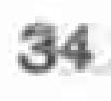34
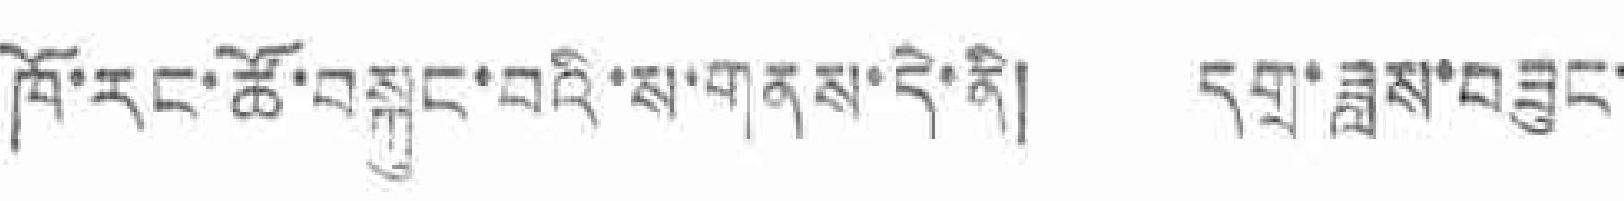ཁོ་རང་ཚོ་བསྐུང་བའི་ས་གནས་དེ་ནི། དགྲ་ཟླས་བཟུང་
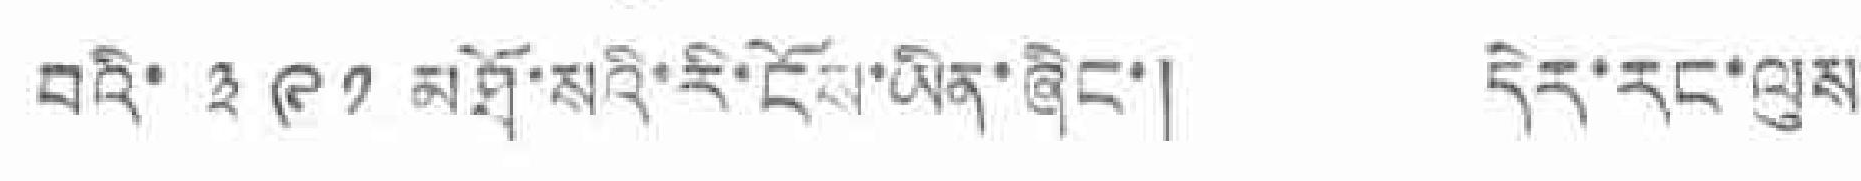བའི་ ༣༩༡ མཐོ་སའི་རི་ངོས་ཡིན་ཞིང་། དེར་རང་ལུས་
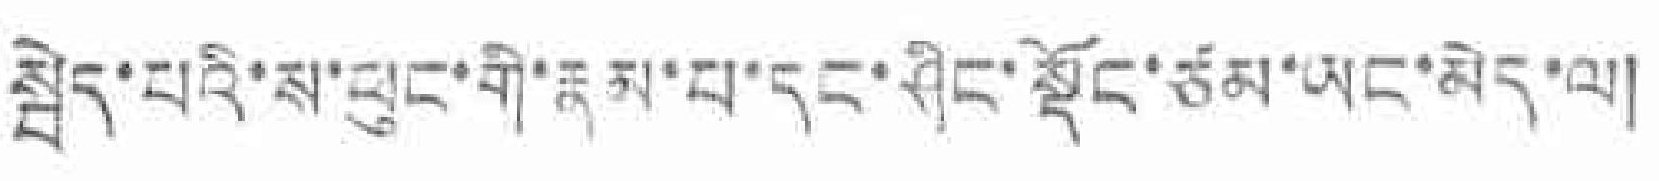སྦེད་པའི་ས་ཕུང་གི་རྣམ་པ་དང་ཤིང་སྡོང་ཙམ་ཡང་མེད་ལ།
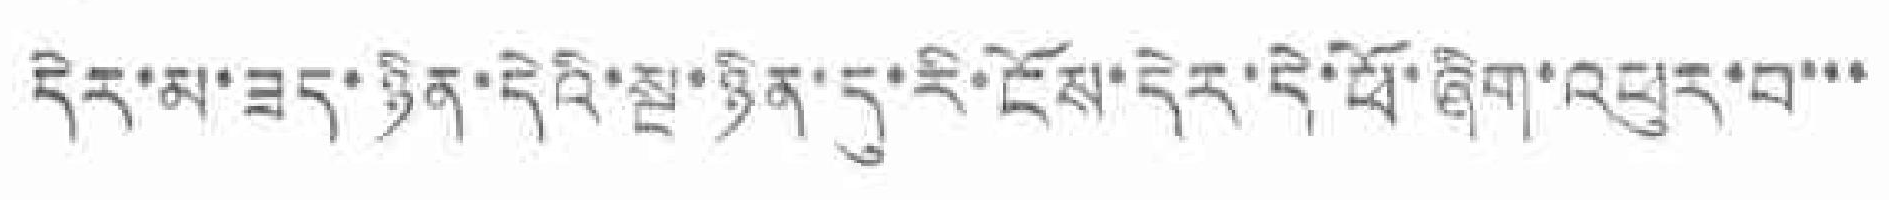དེར་མ་ཟད་ཉིན་དེའི་སྔ་ཉིན་དུ་རི་ངོས་དེར་དེ་ཕོ་ཞིག་འཕུར་བ་་་
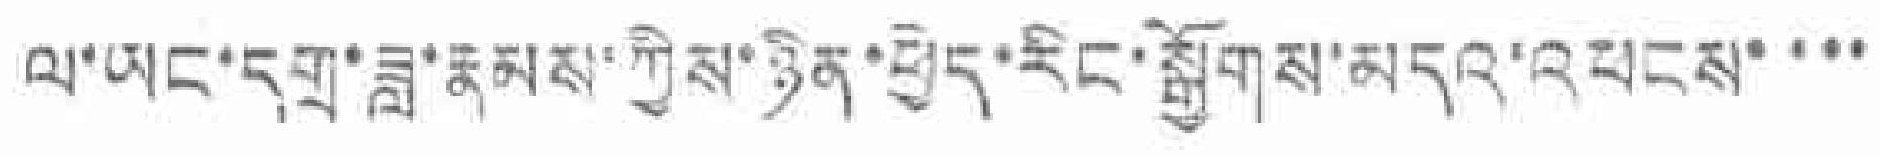ལ་ཡང་དགྲ་ཟླ་རྣམས་ཀྱིས་ཉིན་ཕྱེད་རིང་སྒྱོགས་མདའ་འཕངས་་་་
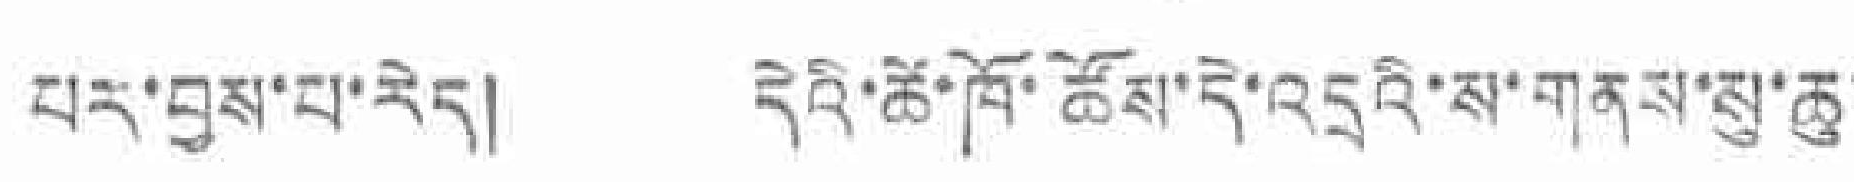པར་བྱས་པ་རེད། དེའི་ཚེ་ཁོ་ཚོས་དེ་འདྲའི་ས་གནས་སུ་ཆུ་
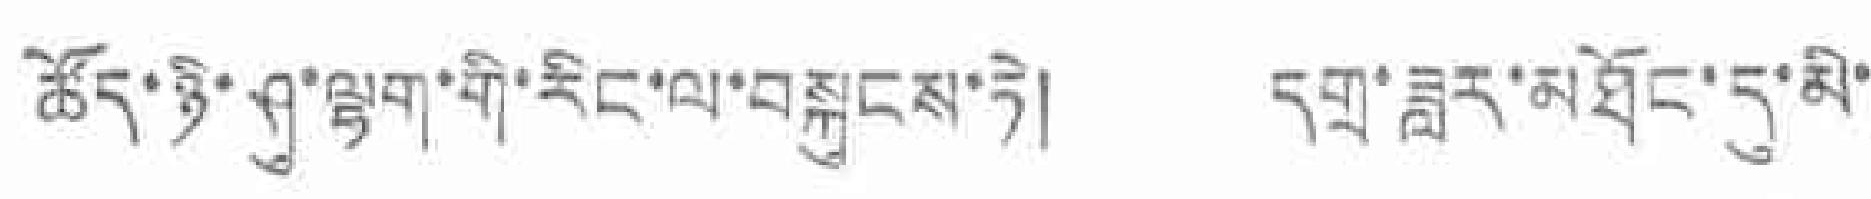ཚོད་ཉི་ཤུ་ལྷག་གི་རིང་ལ་བསྐུངས་ཏེ། དགྲ་ཟླར་མཐོང་དུ་མི་
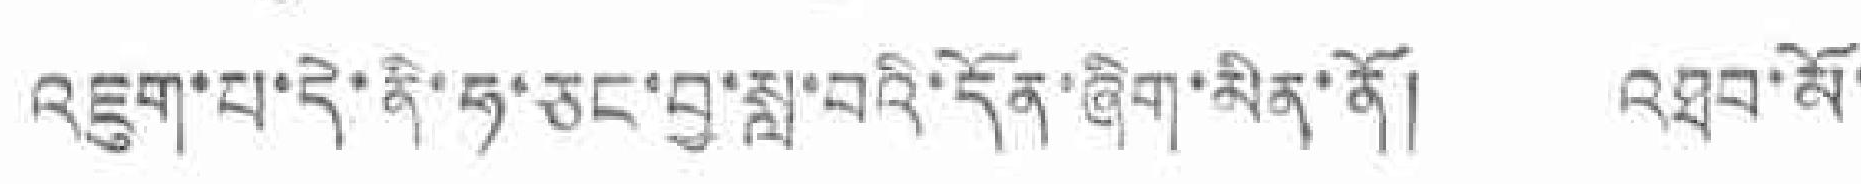འཇུག་པ་དེ་ནི་ཧ་ཅང་བྱ་སླ་བའི་དོན་ཞིག་མིན་ནོ། འཐབ་མོ་
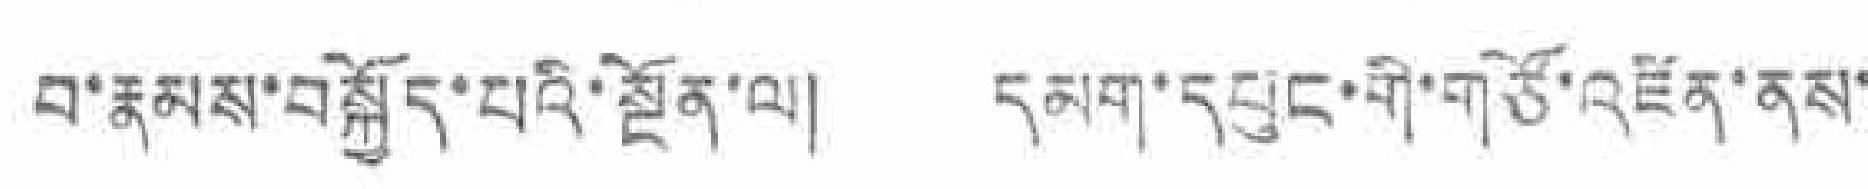བ་རྣམས་བསྐྱོད་པའི་སྔོན་ལ། དམག་དཔུང་གོ་གཙོ་འཛིན་ནས་
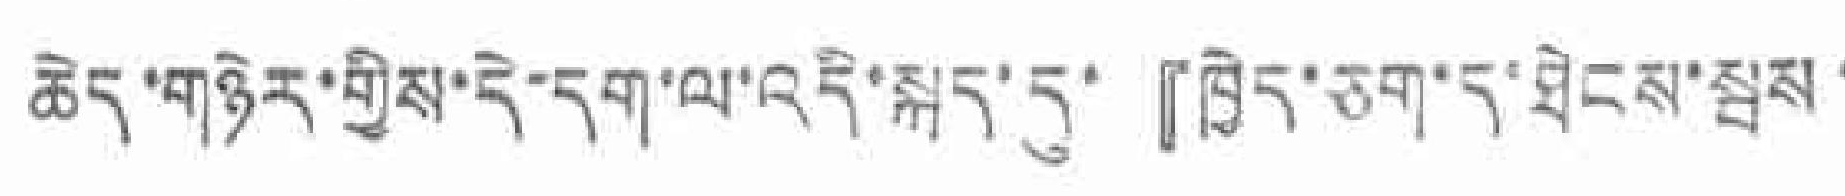ཆེད་གཉེར་གྱིས་དེ་དག་ལ་འདི་སྐད་དུ་『ཁྱེད་ཅག་ད་ཐེངས་སྦས་
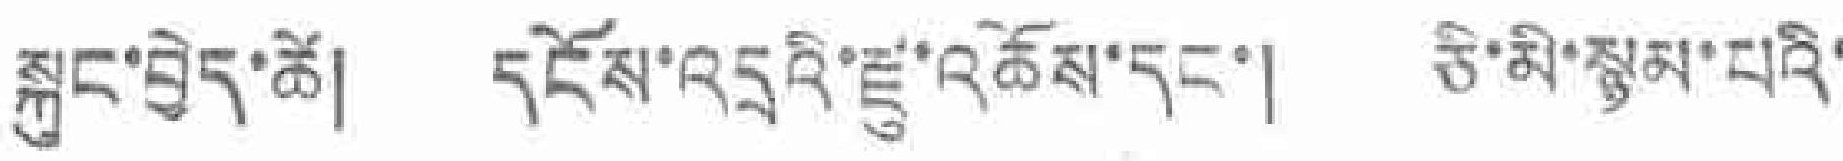སྐུང་བྱེད་ཚེ། དངོས་འདྲའི་རྫུ་འཆོས་དང་། ཅི་མི་སྙམ་པའི་
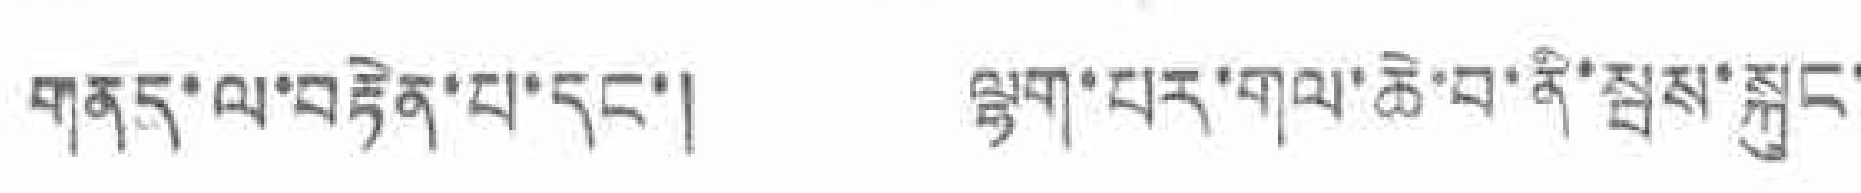གནད་ལ་བརྟེན་པ་དང་། ལྷག་པར་གལ་ཆེ་བ་ནི་སྦས་སྐུང་
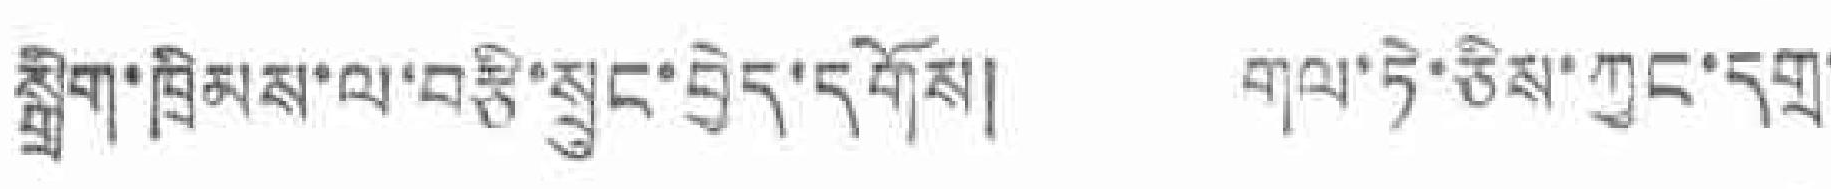སྒྲིག་ཁྲིམས་ལ་བརྩི་སྲུང་བྱེད་དགོས། གལ་ཏེ་ཅིས་ཀྱང་དགྲ་
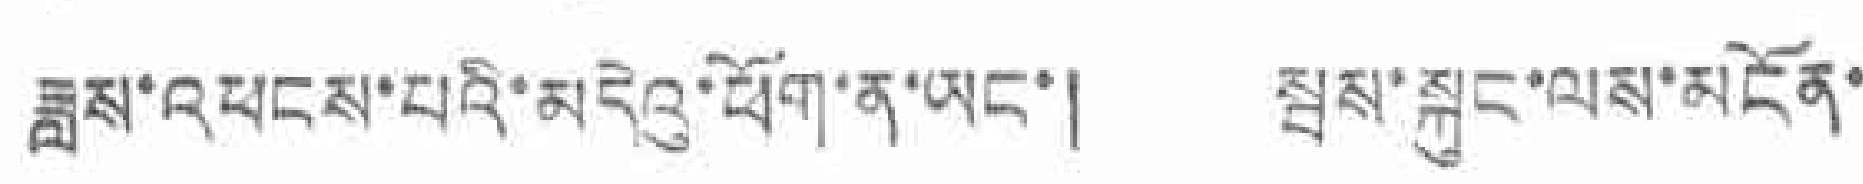ཟླས་འཕངས་པའི་མདེའུ་ཕོག་ན་ཡང་། སྦས་སྐུང་ལས་མངོན་
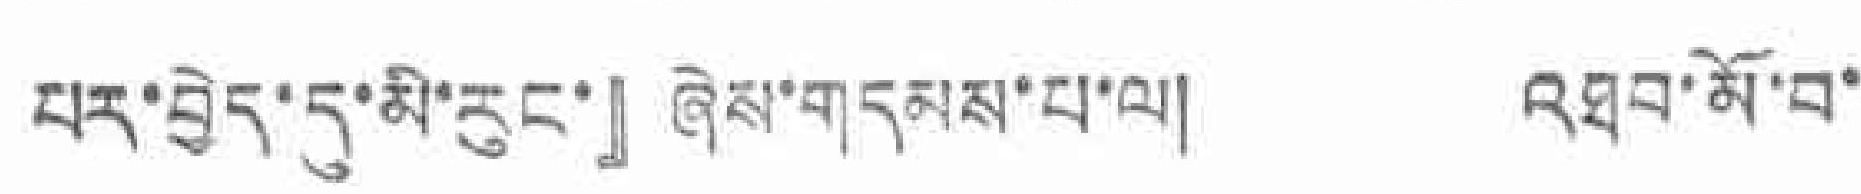པར་བྱེད་དུ་མི་རུང་』ཞེས་གདམས་པ་ལ། འཐབ་མོ་བ་
